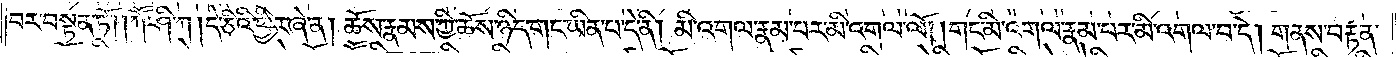བར་བསྟན་ཏོ། །ཀཽ་ཤི་ཀ །དེ་ཅིའི་ཕྱིར་ཞེ་ན། ཆོས་རྣམས་ཀྱི་ཆོས་ཉིད་གང་ཡིན་པ་དེ་ནི། མི་འགལ་རྣམ་པར་མི་འགལ་ལོ། །གང་མི་འགལ་རྣམ་པར་མི་འགལ་བ་དེ། གནས་བརྟན་
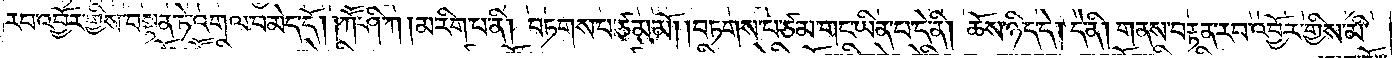རབ་འབྱོར་གྱིས་བསྟན་ཏེ་འགལ་བ་མེད་དོ། །ཀཽ་ཤི་ཀ །མ་རིག་པ་ནི། བཏགས་པ་ཙམ་མོ། །བཏགས་པ་ཙམ་གང་ཡིན་པ་དེ་ནི། ཆོས་ཉིད་དེ། དེ་ནི། གནས་བརྟན་རབ་འབྱོར་གྱིས་མི་
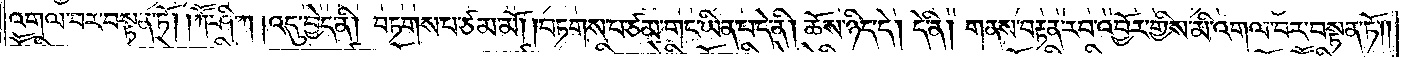འགལ་བར་བསྟན་ཏོ། །ཀཽ་ཤི་ཀ །འདུ་བྱེད་ནི། བཏགས་པ་ཙམ་མོ། །བཏགས་པ་ཙམ་གང་ཡིན་པ་དེ་ནི། ཆོས་ཉིད་དེ། དེ་ནི། གནས་བརྟན་རབ་འབྱོར་གྱིས་མི་འགལ་བར་བསྟན་ཏོ༎
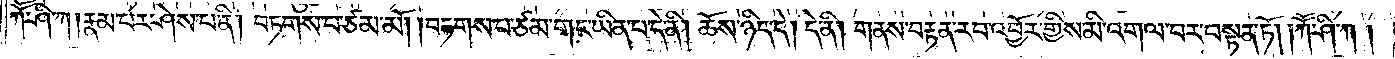ཀཽ་ཤི་ཀ །རྣམ་པར་ཤེས་པ་ནི། བཏགས་པ་ཙམ་མོ། །བཏགས་པ་ཙམ་གང་ཡིན་པ་དེ་ནི། ཆོས་ཉིད་དེ། དེ་ནི། གནས་བརྟན་རབ་འབྱོར་གྱིས་མི་འགལ་བར་བསྟན་ཏོ། །ཀཽ་ཤི་ཀ །
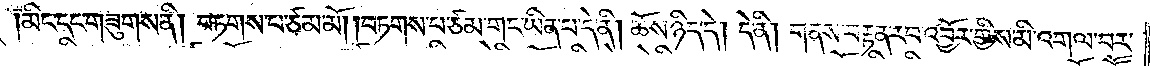མིང་དང་གཟུགས་ནི། བཏགས་པ་ཙམ་མོ། །བཏགས་པ་ཙམ་གང་ཡིན་པ་དེ་ནི། ཆོས་ཉིད་དེ། དེ་ནི། གནས་བརྟན་རབ་འབྱོར་གྱིས་མི་འགལ་བར་
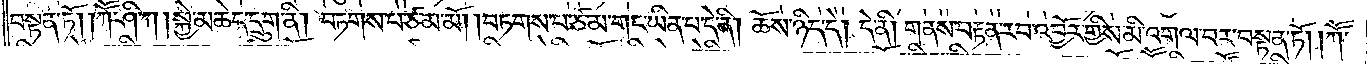བསྟན་ཏོ། །ཀཽ་ཤི་ཀ །སྐྱེ་མཆེད་དྲུག་ནི། བཏགས་པ་ཙམ་མོ། །བཏགས་པ་ཙམ་གང་ཡིན་པ་དེ་ནི། ཆོས་ཉིད་དེ། དེ་ནི། གནས་བརྟན་རབ་འབྱོར་གྱིས་མི་འགལ་བར་བསྟན་ཏོ། །ཀཽ་
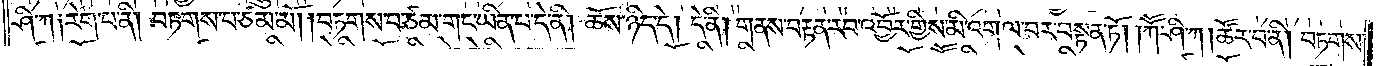ཤི་ཀ་༑རེག་པ་ནི། བཏགས་པ་ཙམ་མོ། །བཏགས་པ་ཙམ་གང་ཡིན་པ་དེ་ནི། ཆོས་ཉིད་དེ། དེ་ནི། གནས་བརྟན་རབ་འབྱོར་གྱིས་མི་འགལ་བར་བསྟན་ཏོ། །ཀཽ་ཤི་ཀ །ཚོར་བ་ནི། བཏགས་
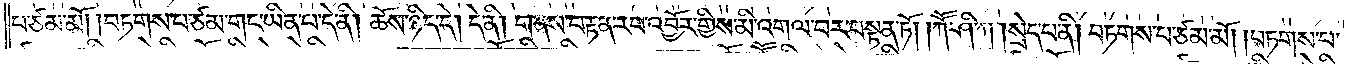པ་ཙམ་མོ། །བཏགས་པ་ཙམ་གང་ཡིན་པ་དེ་ནི། ཆོས་ཉིད་དེ། དེ་ནི། གནས་བརྟན་རབ་འབྱོར་གྱིས་མི་འགལ་བར་བསྟན་ཏོ། །ཀཽ་ཤི་ཀ །སྲེད་པ་ནི། བཏགས་པ་ཙམ་མོ། །བཏགས་པ་
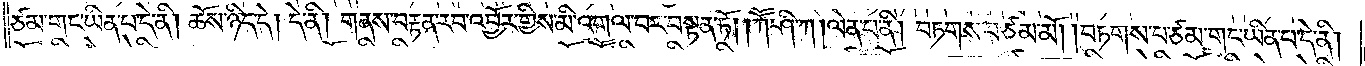ཙམ་གང་ཡིན་པ་དེ་ནི། ཆོས་ཉིད་དེ། དེ་ནི། གནས་བརྟན་རབ་འབྱོར་གྱིས་མི་འགལ་བར་བསྟན་ཏོ། །ཀཽ་ཤི་ཀ །ལེན་པ་ནི། བཏགས་པ་ཙམ་མོ། །བཏགས་པ་ཙམ་གང་ཡིན་པ་དེ་ནི།
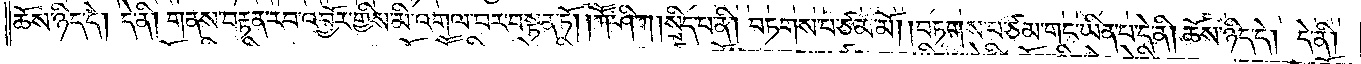ཆོས་ཉིད་དེ། དེ་ནི། གནས་བརྟན་རབ་འབྱོར་གྱིས་མི་འགལ་བར་བསྟན་ཏོ། །ཀཽ་ཤི་ཀ །སྲིད་པ་ནི། བཏགས་པ་ཙམ་མོ། །བཏགས་པ་ཙམ་གང་ཡིན་པ་དེ་ནི། ཆོས་ཉིད་དེ། དེ་ནི།
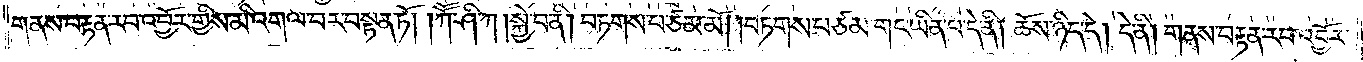གནས་བརྟན་རབ་འབྱོར་གྱིས་མི་འགལ་བར་བསྟན་ཏོ། །ཀཽ་ཤི་ཀ །སྐྱེ་བ་ནི། བཏགས་པ་ཙམ་མོ། །བཏགས་པ་ཙམ་གང་ཡིན་པ་དེ་ནི། ཆོས་ཉིད་དེ། དེ་ནི། གནས་བརྟན་རབ་འབྱོར་
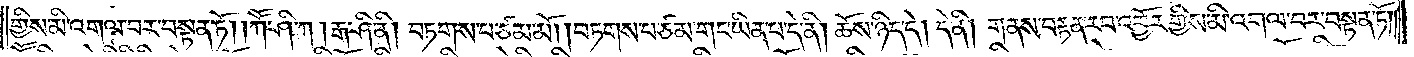གྱིས་མི་འགལ་བར་བསྟན་ཏོ། །ཀཽ་ཤི་ཀ །རྒ་ཤི་ནི། བཏགས་པ་ཙམ་མོ། །བཏགས་པ་ཙམ་གང་ཡིན་པ་དེ་ནི། ཆོས་ཉིད་དེ། དེ་ནི། གནས་བརྟན་རབ་འབྱོར་གྱིས་མི་འགལ་བར་བསྟན་ཏོ༎
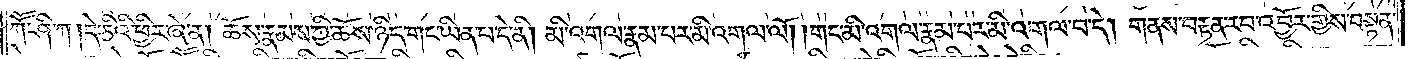ཀཽ་ཤི་ཀ །དེ་ཅིའི་ཕྱིར་ཞེ་ན། ཆོས་རྣམས་ཀྱི་ཆོས་ཉིད་གང་ཡིན་པ་དེ་ནི། མི་འགལ་རྣམ་པར་མི་འགལ་ལོ། །གང་མི་འགལ་རྣམ་པར་མི་འགལ་བ་དེ། གནས་བརྟན་རབ་འབྱོར་གྱིས་བསྟན་
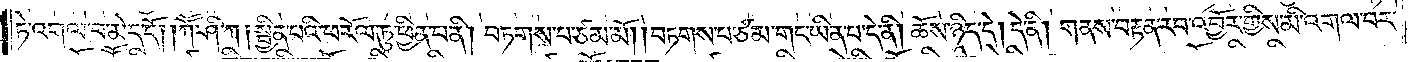ཏེ་འགལ་བ་མེད་དོ།ཀཽ་ཤི་ཀ །སྦྱིན་པའི་ཕ་རོལ་ཏུ་ཕྱིན་པ་ནི། བཏགས་པ་ཙམ་མོ།བཏགས་པ་ཙམ་གང་ཡིན་པ་དེ་ནི། ཆོས་ཉིད་དེ། དེ་ནི། གནས་བརྟན་རབ་འབྱོར་གྱིས་མི་འགལ་བར་
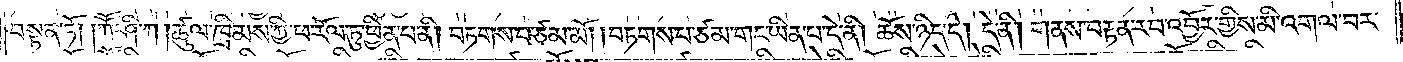བསྟན་ཏོ། །ཀཽ་ཤི་ཀ །ཚུལ་ཁྲིམས་ཀྱི་ཕ་རོལ་ཏུ་ཕྱིན་པ་ནི། བཏགས་པ་ཙམ་མོ། །བཏགས་པ་ཙམ་གང་ཡིན་པ་དེ་ནི། ཆོས་ཉིད་དེ། དེ་ནི། གནས་བརྟན་རབ་འབྱོར་གྱིས་མི་འགལ་བར་
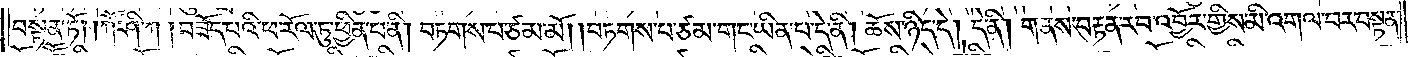བསྟན་ཏོ། །ཀཽ་ཤི་ཀ །བཟོད་པའི་ཕ་རོལ་ཏུ་ཕྱིན་པ་ནི། བཏགས་པ་ཙམ་མོ༎ བཏགས་པ་ཙམ་གང་ཡིན་པ་དེ་ནི། ཆོས་ཉིད་དེ། དེ་ནི། གནས་བརྟན་རབ་འབྱོར་གྱིས་མི་འགལ་བར་བསྟན་
